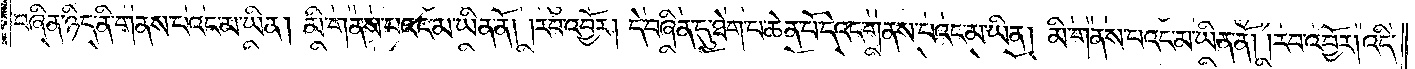བཞིན་ཉིད་ནི་གནས་པའང་མ་ཡིན། མི་གནས་པའང་མ་ཡིན་ནོ། །རབ་འབྱོར། དེ་བཞིན་དུ་ཐེག་པ་ཆེན་པོ་དེའང་གནས་པའང་མ་ཡིན། མི་གནས་པའང་མ་ཡིན་ནོ། །རབ་འབྱོར། འདི་
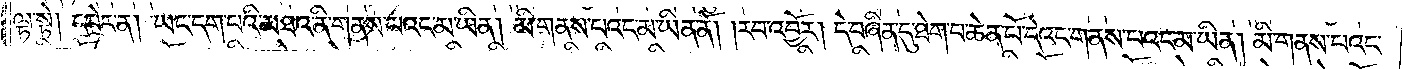ལྟ་སྟེ། དཔེར་ན། ཡང་དག་པའི་མཐའ་ནི་གནས་པའང་མ་ཡིན། མི་གནས་པའང་མ་ཡིན་ནོ། །རབ་འབྱོར། དེ་བཞིན་དུ་ཐེག་པ་ཆེན་པོ་དེའང་གནས་པའང་མ་ཡིན། མི་གནས་པའང་
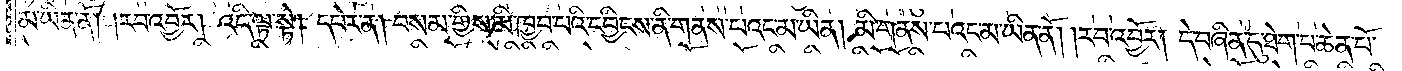མ་ཡིན་ནོ། །རབ་འབྱོར། འདི་ལྟ་སྟེ། དཔེར་ན། བསམ་གྱིས་མི་ཁྱབ་པའི་དབྱིངས་ནི་གནས་པའང་མ་ཡིན། མི་གནས་པའང་མ་ཡིན་ནོ། །རབ་འབྱོར། དེ་བཞིན་དུ་ཐེག་པ་ཆེན་པོ་
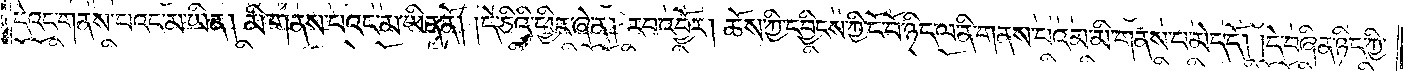དེའང་གནས་པའང་མ་ཡིན། མི་གནས་པའང་མ་ཡིན་ནོ། །དེ་ཅིའི་ཕྱིར་ཞེ་ན། རབ་འབྱོར། ཆོས་ཀྱི་དབྱིངས་ཀྱི་ངོ་བོ་ཉིད་ལ་ནི་གནས་པའམ་མི་གནས་པ་མེད་དོ། །དེ་བཞིན་ཉིད་ཀྱི་
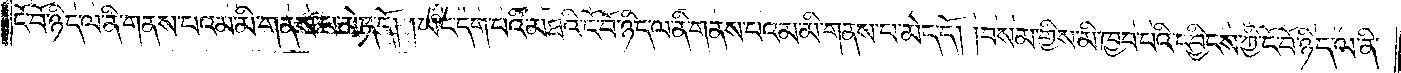ངོ་བོ་ཉིད་ལ་ནི་གནས་པའམ་མི་གནས་པ་མེད་དོ། །ཡང་དག་པའི་མཐའི་ངོ་བོ་ཉིད་ལ་ནི་གནས་པ་འམ་མི་གནས་པ་མེད་དོ། །བསམ་གྱིས་མི་ཁྱབ་པའི་དབྱིངས་ཀྱི་ངོ་བོ་ཉིད་ལ་ནི་
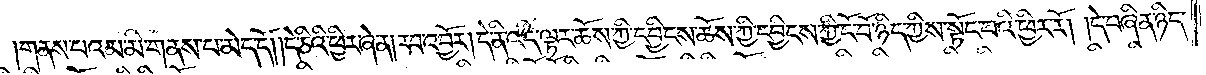གནས་པའམ་མི་གནས་པ་མེད་དོ། །དེ་ཅིའི་ཕྱིར་ཞེ་ན། རབ་འབྱོར། དེ་ནི་འདི་ལྟར་ཆོས་ཀྱི་དབྱིངས་ཆོས་ཀྱི་དབྱིངས་ཀྱི་ངོ་བོ་ཉིད་ཀྱིས་སྟོང་པའི་ཕྱིར་རོ། །དེ་བཞིན་ཉིད་
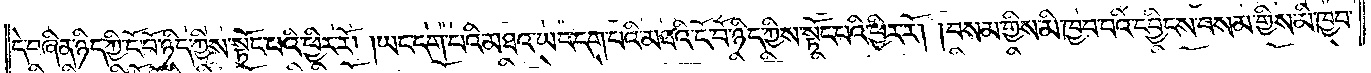དེ་བཞིན་ཉིད་ཀྱི་ངོ་བོ་ཉིད་ཀྱིས་སྟོང་པའི་ཕྱིར་རོ། །ཡང་དག་པའི་མཐའ་ཡང་དག་པའི་མཐའི་ངོ་བོ་ཉིད་ཀྱིས་སྟོང་པའི་ཕྱིར་རོ། །བསམ་གྱིས་མི་ཁྱབ་པའི་དབྱིངས་བསམ་གྱིས་མི་ཁྱབ་
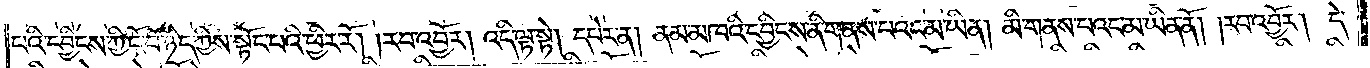པའི་དབྱིངས་ཀྱི་ངོ་བོ་ཉིད་ཀྱིས་སྟོང་པའི་ཕྱིར་རོ། །རབ་འབྱོར། འདི་ལྟ་སྟེ་དཔེར་ན། ནམ་མཁའི་དབྱིངས་ནི་གནས་པའང་མ་ཡིན། མི་གནས་པའང་མ་ཡིན་ནོ། །རབ་འབྱོར། དེ་
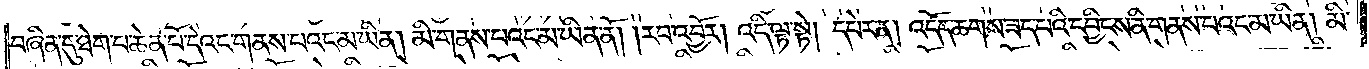བཞིན་དུ་ཐེག་པ་ཆེན་པོ་དེའང་གནས་པའང་མ་ཡིན། མི་གནས་པའང་མ་ཡིན་ནོ། །རབ་འབྱོར། འདི་ལྟ་སྟེ། དཔེར་ན། འདོད་ཆགས་ཟད་པའི་དབྱིངས་ནི་གནས་པའང་མ་ཡིན། མི་
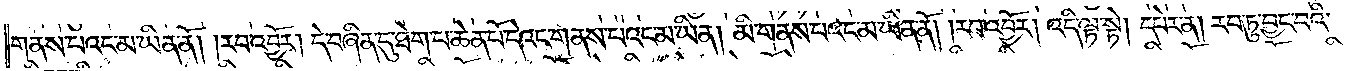གནས་པའང་མ་ཡིན་ནོ། །རབ་འབྱོར། དེ་བཞིན་དུ་ཐེག་པ་ཆེན་པོ་དེའང་གནས་པའང་མ་ཡིན། མི་གནས་པའང་མ་ཡིན་ནོ། །རབ་འབྱོར། འདི་ལྟ་སྟེ། དཔེར་ན། རབ་ཏུ་བྱང་བའི་
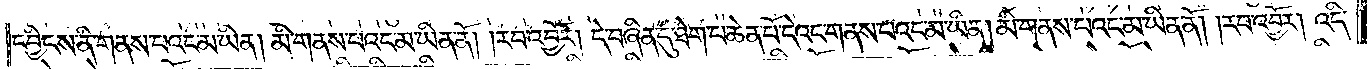དབྱིངས་ནི་གནས་པའང་མ་ཡིན། མི་གནས་པའང་མ་ཡིན་ནོ། །རབ་འབྱོར། དེ་བཞིན་དུ་ཐེག་པ་ཆེན་པོ་དེའང་གནས་པའང་མ་ཡིན། མི་གནས་པའང་མ་ཡིན་ནོ། །རབ་འབྱོར། འདི་
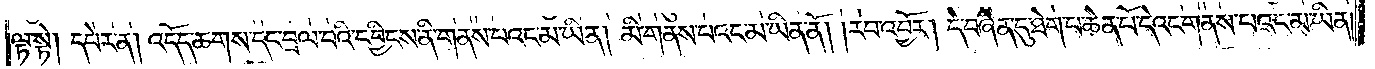ལྟ་སྟེ། དཔེར་ན། འདོད་ཆགས་དང་བྲལ་བའི་དབྱིངས་ནི་གནས་པའང་མ་ཡིན། མི་གནས་པའང་མ་ཡིན་ནོ། །རབ་འབྱོར། དེ་བཞིན་དུ་ཐེག་པ་ཆེན་པོ་དེའང་གནས་པའང་མ་ཡིན།
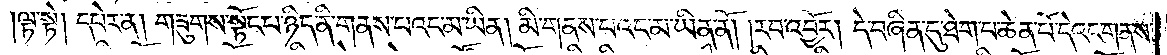ལྟ་སྟེ། དཔེར་ན། གཟུགས་སྟོང་པ་ཉིད་ནི་གནས་པའང་མ་ཡིན། མི་གནས་པའང་མ་ཡིན་ནོ། །རབ་འབྱོར། དེ་བཞིན་དུ་ཐེག་པ་ཆེན་པོ་དེའང་གནས་
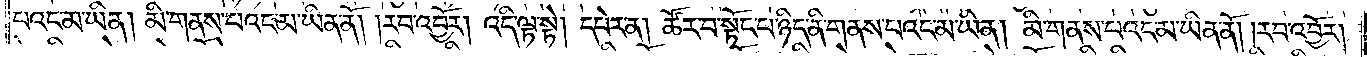པའང་མ་ཡིན། མི་གནས་པའང་མ་ཡིན་ནོ། །རབ་འབྱོར། འདི་ལྟ་སྟེ། དཔེར་ན། ཚོར་བ་སྟོང་པ་ཉིད་ནི་གནས་པའང་མ་ཡིན། མི་གནས་པའང་མ་ཡིན་ནོ། །རབ་འབྱོར།
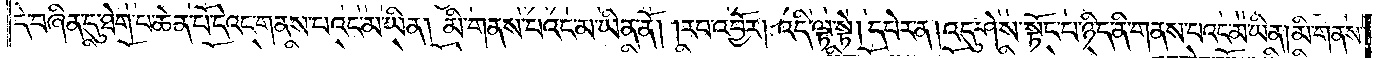དེ་བཞིན་དུ་ཐེག་པ་ཆེན་པོ་དེའང་གནས་པའང་མ་ཡིན། མི་གནས་པའང་མ་ཡིན་ནོ། །རབ་འབྱོར། འདི་ལྟ་སྟེ། དཔེར་ན། འདུ་ཤེས་སྟོང་པ་ཉིད་ནི་གནས་པའང་མ་ཡིན། མི་གནས་
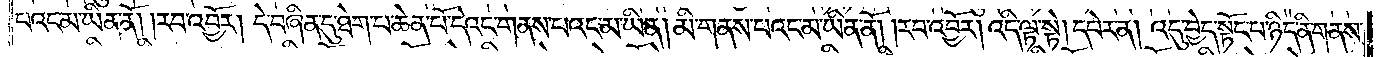པའང་མ་ཡིན་ནོ། །རབ་འབྱོར། དེ་བཞིན་དུ་ཐེག་པ་ཆེན་པོ་དེའང་གནས་པའང་མ་ཡིན། མི་གནས་པའང་མ་ཡིན་ནོ། །རབ་འབྱོར། འདི་ལྟ་སྟེ། དཔེར་ན། འདུ་བྱེད་སྟོང་པ་ཉིད་ནི་གནས་
